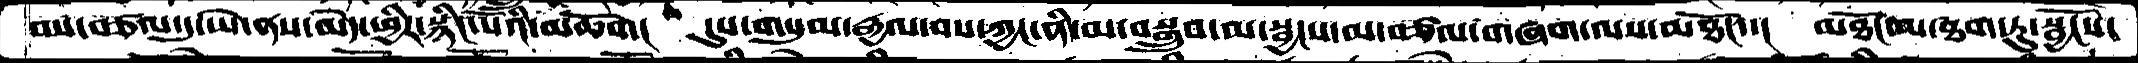བས་བཙལ་དུ་ཡེ་ནས་མེད་ཕྱིར་སྙིང་པོའི་མཆོག་།   དུས་གསུམ་རྒྱལ་བས་ཀྱང་ནི་མ་བསྒྲུབ་མ་སྦྱངས་མ་བཙལ་གཞག་ལས་མཐོང་་།   མཐོང་མ་ཐག་ཏུ་སྦྱོངས་
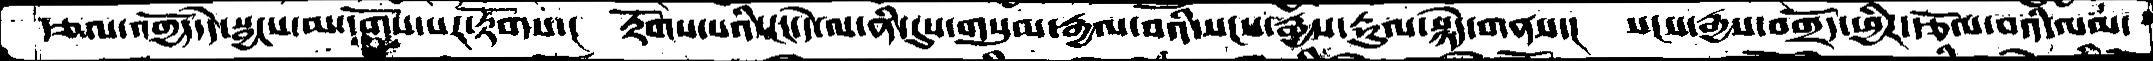རྩལ་འགྱོད་དེ་སྦྱངས་མ་དགོས་པར་རྟོགས་།   རྟོགས་པའི་ངང་དེ་ལ་ནི་དུས་གསུམ་རྒྱལ་བའི་སངས་རྒྱས་རྡུལ་སྙེད་གནས་།   སངས་རྒྱས་འགྲོད་ཕྱིར་རྩོལ་བའི་ལམ་
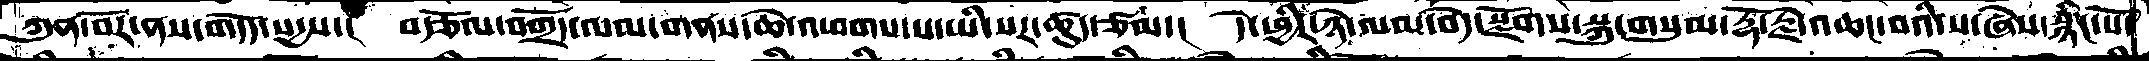ཀུན་བོར་ནས་གདོད་སདྱས་།   བརྩོལ་བགྲོད་ལམ་གནས་ཆེ་འཕགས་ས་ཡི་སར་ཚུད་ཙམ་།   དེ་ཕྱིར་ཉེ་ལམ་བདེ་སྫོགས་སྐུ་གསུམ་རྡོ་རྗེ་འཆང་བའི་ས་ཞེས་སྙིང་པོ་
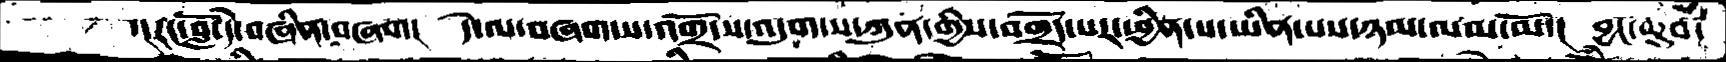་།རང་བློ་དེ་བཞིན་བཞག།  དེ་ལ་བཞག་ས་འགྲོ་ས་འདུག་ས་ཀུན་གྱིས་བགྲོད་པར་ཕྱིན་པ་ཡིན་པས་ཉམ་ལམ་མོ་།  བྱང་ཆུབ་
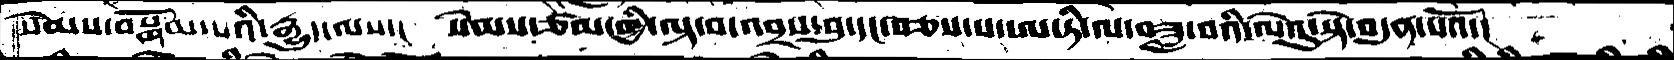སེམས་བསྒོམ་པའི་རྒྱུད་ལས་།  སེམས་ཙམ་གྱི་ལྟ་བ་འབྲས་བུ་དང་བཅས་པ་ཨ་ཏི་ལ་བཟླ་བའི་ལེའུ་སྟེ་བདུན་པའོ་།
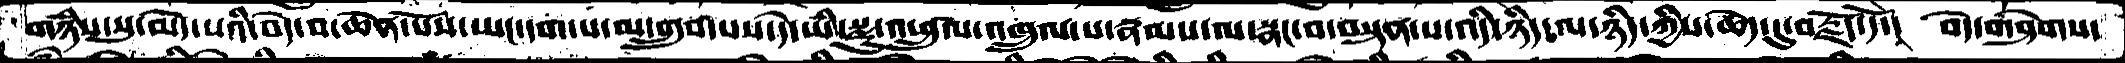གཉིས་སུ་མེད་པའི་བདེ་བ་ཆེན་པོས་ཡང་དག་པ་མ་གྲུབ་པས་དེ་ཡི་སྫུ་འཕྲུལ་འཁྲུལ་པ་རྣམས་ལ་སྣང་བ་བསྟན་པ་འདི་ཉིད་ལ་ཉིད་ཀྱིས་ཆེད་དུ་བརྗོད་དོ་།  བདེ་གཤེགས་
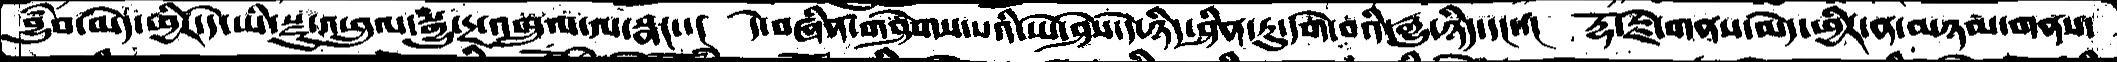བྱུཾབ་མེད་ཕྱིར་དེ་ཡི་སྫུ་འཕྲུལ་སྒྱུ་དྲ་འཁྲུལ་ལ་སྣང་་།  དེ་བཞིན་གཤེགས་པའི་ཡེ་ཤེས་དེ་ཉིད་ཤིན་ཏུ་དགེ་བའི་རྒྱུ་ཉིད་དང་་།  རྡོ་རྗེ་གནས་མེད་ཕྱིར་ན་མཉམ་གནས་
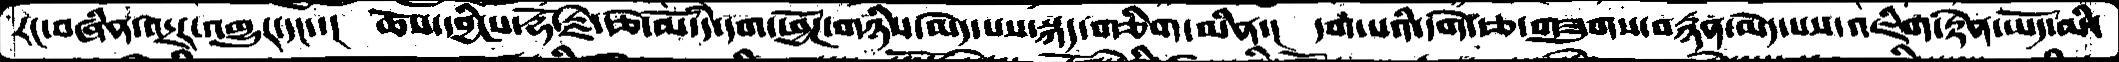རང་བཞིན་འདྲར་འགྱུར་དང་་། ཆོས་དབྱིངས་རྡོ་རྗེ་རྩེ་མོ་དེ་དག་ཕྱོཌ་གཉིས་མེད་པས་སྐད་གཅིག་མིན་། དག་པའི་དགེ་དཅ་གཟུགས་བརྙན་མེད་པས་འཇིག་རྟེན་ཡོད་མི་
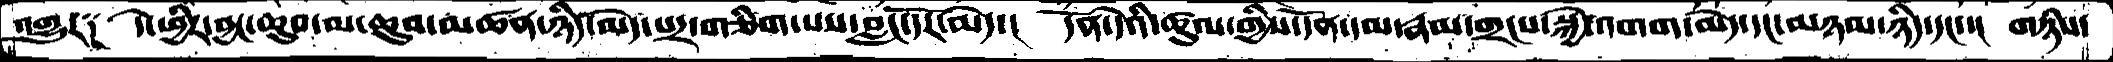འགྱུར༑  དེ་ཕྱིར་བྱང་ཆུབ་མ་ཆུབ་མཚན་ཉིད་མེད་པར་གཅིག་པས་བླང་དོར་མེད་།  དོན་དེའི་ཚུལ་གྱིས་དོན་དམ་རྣམ་གྲངས་སྐྱེ་འགག་མེད་དང་མཉམ་ཉིད་དང་་།  གཉིས་
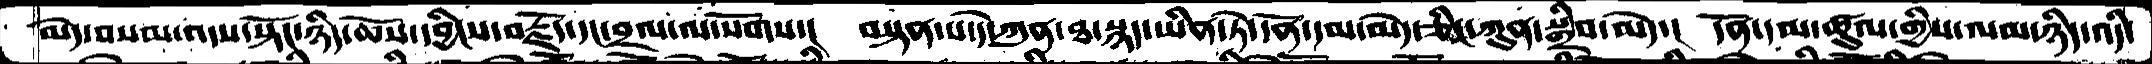མེད་བསམ་འདས་སྟོང་ཉིད་ཆོས་དབྱིངས་བརྗོད་དང་བྲལ་ལ་སོགས་།  བསྟན་པ་དེ་ཀུན་ཐ་སྙད་ཡིན་ཏེ་དོན་དམ་མེད་ཅིང་ཀུན་སྒྲིབ་མེད་།  དོན་དམ་ཚུལ་གྱིས་ལམ་ཉིད་འདི་
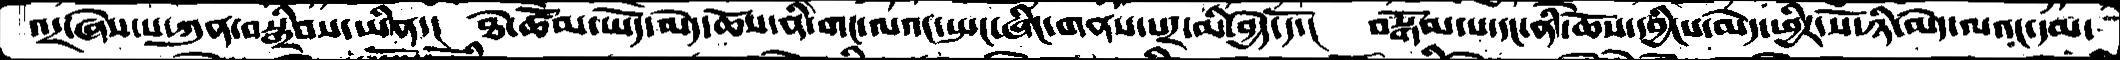འདྲ་ཞེས་པ་ཀུན་བསྒྲིབས་ཡིན་།  ཐེ་ཚོམ་ཡོད་མེད་ཆོས་ནི་གང་ལའང་སྤང་ཞིང་གནས་པར་མི་བྱེད་དོ་།  བསྒོམ་པ་དང་ནི་ཆོས་དབྱིངས་མེད་ཕྱིར་སོ་ཉི་མེད་ལའང་དམ་
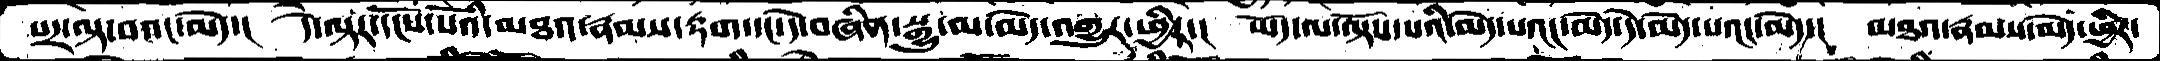པར་ལྟེ་བའང་མེད་།  དེ་ལྟར་དངོས་པོའི་མཐའ་རྣམས་རྟག་དང་དེ་བཞིན་སྒྱུ་མ་མེད་འགྱུར་ཕྱིར་།  ཡོད་ལ་ལྟོས་པའི་མེད་པའང་མེད་དེ་མེད་པའང་མེད་།  མཐའ་རྣམས་མེད་ཕྱིར་
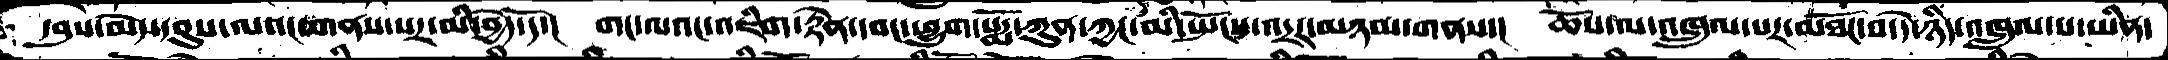དབུས་མེད་དབུས་ལའང་གནས་པར་མི་བྱེད་དོ་།  གང་ལའང་འཇིག་རྟེན་དབང་ཕྱུག་པདྨོ་ཀུན་ཀྱང་མི་སྤོངས་འདྲར་མཉམ་གནས་།  ཆོས་ལ་འཁྲུལ་པར་མཐོང་བ་དེ་ཉིད་འཁྲུལ་པ་ཡིན་
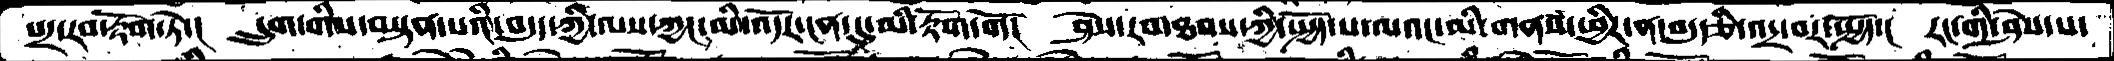པར་རབ་རྟོག་ཏེ་།  དྲུག་གིས་བསྟན་པའི་བདུད་ཀྱི་ལས་ཀྱང་མི་འདོར་ངན་དུ་མི་རྟོག་གོ།  ཤེས་་རབ་ཐབས་ཀྱི་སྤྱོད་པ་ལའང་མི་གནས་ཕྱིར་ན་བདུདཙི་འདྲ་བར་སྤྱོད་། རང་གི་ཤེས་པ་
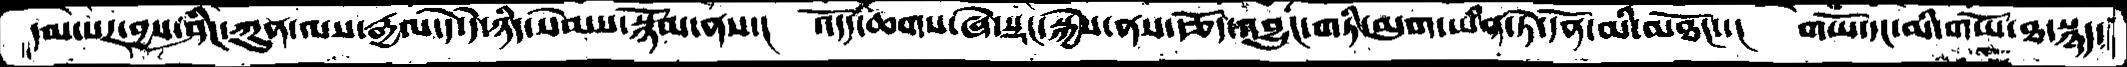དམ་པར་བྱས་ཤིང་ཀུན་ལས་རྒྱལ་དེ་དེ་ཉིད་སེམས་སྙོམ་ནས་།  འདོད་ཆཌ་ཞེ་སྡང་སྐྱེས་ནས་རྩོད་འབྱུང་གཏི་མུག་ཡིན་ཏེ་དོན་མི་མཐོང་་།   གཡོ་དང་མི་གཡོ་ཐ་སྙད་
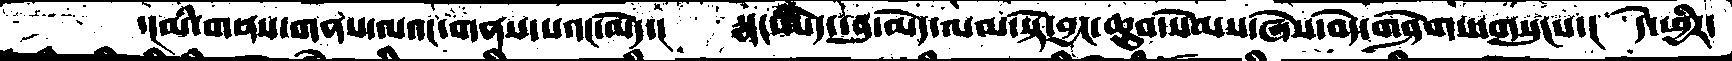་།མི་གནས་གནས་ལའང་གནས་པའང་མེད་།    སྣང་མེད་བུ་མེད་ལམ་སྟེ་བྱང་ཆུབ་སེམས་ཞེས་བདེ་གཤེགས་གསུངས་།   དེ་ཕྱིར་
